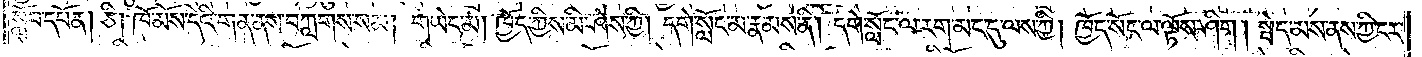སློབ་དཔོན། ཅི། ཁོ་མོས་དེའི་གན་ནས་བཀླགས་སམ། གཡེང་མ། ཁྱོད་ཀྱིས་མི་ཤེས་ཀྱི། དགེ་སློང་མ་རྣམས་ནི། དགེ་སློང་མ་རག་མང་དུ་ལས་ཀྱི། ཁྱོད་སོང་ལ་ལྟོས་ཤིག །སྦེད་མས་ནས་ཀྱི་ངར་
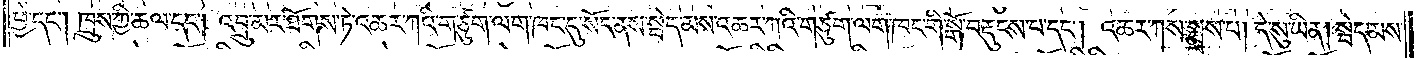ཕྱེ་དང༌། ཁྲུས་ཀྱི་ཆལ་དང༌། འབྲུ་མར་ཐོགས་ཏེ་འཆར་ཀའི་གཙུག་ལག་ཁང་དུ་སོང་ནས་སྦེད་མས་འཆར་ཀའི་གཙུག་ལག་ཁང་གི་སྒོ་བརྡུངས་པ་དང༌། འཆར་ཀས་སྨྲས་པ། དེ་སུ་ཡིན། སྦེད་མས་
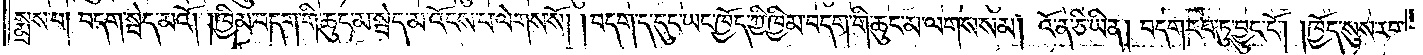སྨྲས་པ། བདག་སྦེད་མའོ། །ཁྱིམ་བདག་གི་ཆུང་མ་སྦེད་མ་འོངས་པ་ལེགས་སོ། །བདག་ད་དུང་ཡང་ཁྱོད་ཀྱི་ཁྱིམ་བདག་གི་ཆུང་མ་ལགས་སམ། འོ་ན་ཅི་ཡིན། །བདག་རབ་ཏུ་བྱུང་ངོ༌། །ཁྱོད་སུས་རབ་
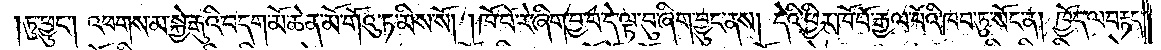ཏུ་ཕྱུང༌། འཕགས་མ་སྐྱེ་རྒུའི་བདག་མོ་ཆེན་མོ་གོའུ་ཏ་མིས་སོ། །ཁོ་བོ་རེ་ཞིག་བྱ་བ་དེ་ལྟ་བུ་ཞིག་བྱུང་ནས། དེའི་ཕྱིར་ཁོ་བོ་རྒྱལ་པོའི་ཁབ་ཏུ་སོང་ན། ཁྱོད་ལ་བརྟད་
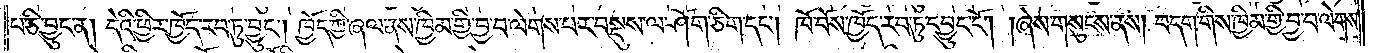པ་ཅི་བྱུང་ན། དེའི་ཕྱིར་ཁྱོད་རབ་ཏུ་བྱུང༌། ཁྱོད་ཀྱི་ཞལ་ནས་ཁྱིམ་གྱི་བྱ་བ་ལེགས་པར་བསྡུས་ལ་ཤོག་ཅིག་དང༌། ཁོ་བོས་ཁྱོད་རབ་ཏུ་དབྱུང་ངོ༌། །ཞེས་གསུངས་ནས། བདག་གིས་ཁྱིམ་གྱི་བྱ་བ་ལེགས་
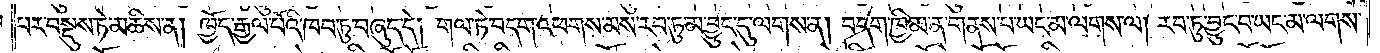པར་བསྡུས་ཏེ་མཆིས་ན། ཁྱོད་རྒྱལ་པོའི་ཁབ་ཏུ་བཞུད་དེ། གལ་ཏེ་བདག་འཕགས་མས་རབ་ཏུ་མ་བྱུང་དུ་ལགས་ན། བདག་ཁྱིམ་ན་གནས་པ་ཡང་མ་ལགས་ལ། རབ་ཏུ་བྱུང་བ་ཡང་མ་ལགས་
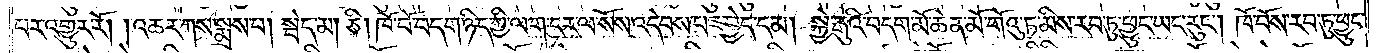པར་འགྱུར་རོ། །འཆར་ཀས་སྨྲས་པ། སྦེད་མ། ཅི། ཁོ་བོ་བདག་ཉིད་ཀྱི་ལག་ངར་ལ་སོས་འདེབས་པར་བྱེད་དམ། སྐྱེ་རྒུའི་བདག་མོ་ཆེན་མོ་གོའུ་ཏ་མིས་རབ་ཏུ་ཕྱུང་ཡང་རུང༌། ཁོ་བོས་རབ་ཏུ་ཕྱུང་
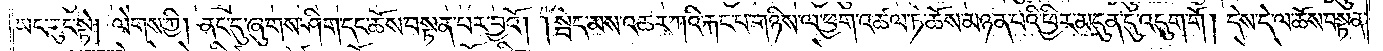ཡང་རུང་སྟེ། ལེགས་ཀྱི། ནང་དུ་ཞུགས་ཤིག་དང་ཆོས་བསྟན་པར་བྱའོ། །སྦེད་མས་འཆར་ཀའི་རྐང་པ་གཉིས་ལ་ཕྱག་འཚལ་ཏེ་ཆོས་མཉན་པའི་ཕྱིར་མདུན་དུ་འདུག་གོ །དེས་དེ་ལ་ཆོས་བསྟན་
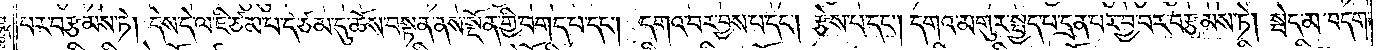པར་བརྩམས་ཏེ། དེས་དེ་ལ་ཇི་ཙམ་པ་དེ་ཙམ་དུ་ཆོས་བསྟན་ནས་སྔོན་གྱི་བགད་པ་དང༌། དགའ་བར་བྱས་པ་དང༌། རྩེས་པ་དང༌། དགའ་མགུར་སྤྱོད་པ་དྲན་པར་བྱ་བར་བརྩམས་ཏེ། སྦེད་མ་བདག་
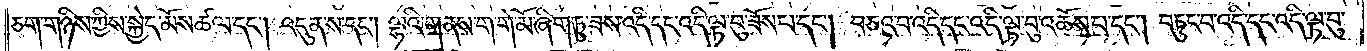ཅག་གཉིས་ཀྱིས་སྐྱེད་མོས་ཚལ་དང༌། འདུན་ས་དང༌། ལྷའི་གནས་ག་གེ་མོ་ཞིག་ཏུ་ཟས་འདི་དང་འདི་ལྟ་བུ་ཟོས་པ་དང༌། བཅའ་བ་འདི་དང་འདི་ལྟ་བུ་འཆོས་པ་དང༌། བཏུང་བ་འདི་དང་འདི་ལྟ་བུ་
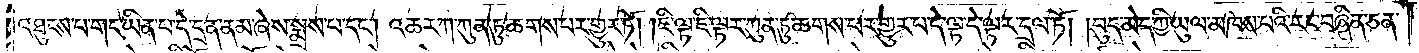འཐུངས་པ་གང་ཡིན་པ་དེ་དྲན་ནམ་ཞེས་སྨྲས་པ་དང༌། འཆར་ཀ་ཀུན་ཏུ་ཆགས་པར་གྱུར་ཏོ། །ཇི་ལྟ་ཇི་ལྟར་ཀུན་ཏུ་ཆགས་པར་གྱུར་པ་དེ་ལྟ་དེ་ལྟར་དྲལ་ཏོ། །བུད་མེད་ཀྱི་ཡུལ་མཁས་པའི་རང་བཞིན་ཅན་
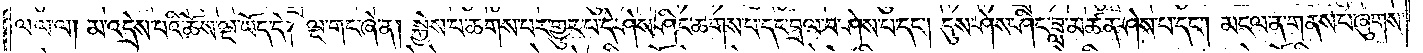ལ་ལ་ལ། མ་འདྲེས་པའི་ཆོས་ལྔ་ཡོད་དེ། ལྔ་གང་ཞེ་ན། སྐྱེས་པ་ཆགས་པར་གྱུར་པ་དེ་ཤེས་ཤིང་ཆགས་པ་དང་བྲལ་བ་ཤེས་པ་དང༌། དུས་ཤེས་ཤིང་ཟླ་མཚན་ཤེས་པ་དང༌། མངལ་ན་གནས་པ་ཞུགས་
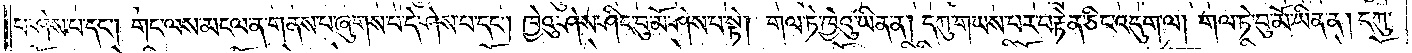པ་ཤེས་པ་དང༌། གང་ལས་མངལ་ན་གནས་པ་ཞུགས་པ་དེ་ཤེས་པ་དང༌། ཁྱེའུ་ཤེས་ཤིང་བུ་མོ་ཤེས་པ་སྟེ། གལ་ཏེ་ཁྱེའུ་ཡིན་ན། དཀུ་གཡས་པར་བརྟེན་ཅིང་འདུག་ལ། གལ་ཏེ་བུ་མོ་ཡིན་ན། དཀུ་
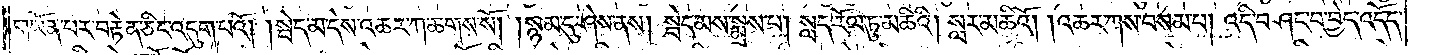གཡོན་པར་བརྟེན་ཅིང་འདུག་པའོ། །སྦེད་མ་དེས་འཆར་ཀ་ཆགས་སོ། །སྙམ་དུ་ཤེས་ནས། སྦེད་མས་སྨྲས་པ། སླད་རོལ་ཏུ་མཆིའི། སླར་མཆིའོ། །འཆར་ཀས་བསམ་པ། འདི་བཤང་བ་བྱེད་འདོད་
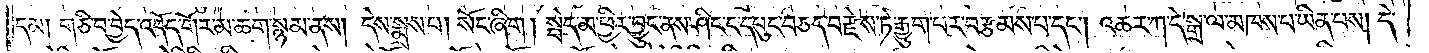དམ། གཅི་བ་བྱེད་འདོད་གོར་མ་ཆག་སྙམ་ནས། དེས་སྨྲས་པ། སོང་ཞིག། སྦེད་མ་ཕྱིར་བྱུང་ནས་ཤིང་ང་དཔུང་བཅད་བརྫེས་ཏེ་རྒྱུག་པར་བརྩམས་པ་དང༌། འཆར་ཀ་དེ་སྒྲ་ལ་མཁས་པ་ཡིན་པས། དེ་
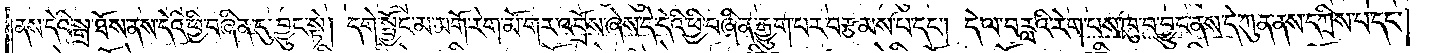ནས་དེའི་སྒྲ་ཐོས་ནས་དེའི་ཕྱི་བཞིན་དུ་བྱུང་སྟེ། དགེ་སྦྱོང་མ་མགོ་རེག་མོ་གར་འབྲོས་ཞེས་དེ་དེའི་ཕྱི་བཞིན་རྒྱུག་པར་བརྩམས་པ་དང༌། དེ་ལ་བརླའི་རེག་པས་ཁུ་བ་བྱུང་ནས་དེ་ཀུན་ནས་དཀྲིས་པ་དང༌།
